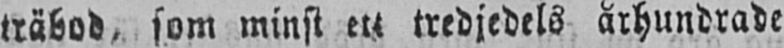träbod, som minst ett tredjedels århundrade
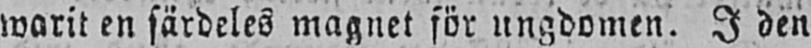warit en särdeles magnet for ungdomen. I den
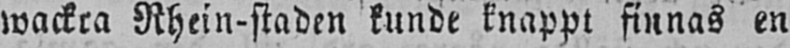wackra Rhein-staden kunde knappt finnas en
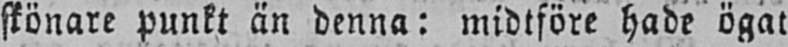skönare punkt än denna: midtföre hade ögat
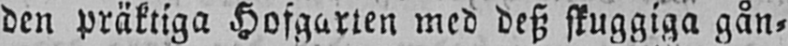den präktiga Hofgarten med desz skuggiga gån-
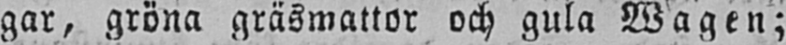gar, gröna gräsmattor och gula Wagen;
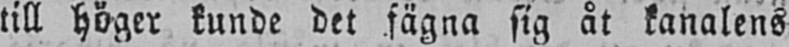till höger kunde det fägna sig åt kanalens
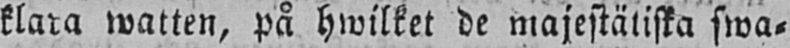klara watten, på hwilket de majestätiska swa-
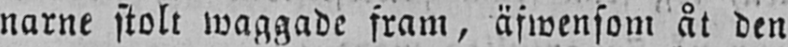narne stolt waggade fram, äfwensom åt den
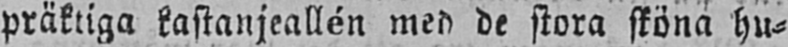präktiga kastanjeallén med de stora sköna hu-
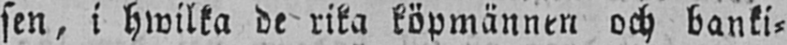sen, i hwilka de rika köpmännen och banki-
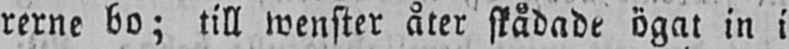rerne bo; till wenster åter stådade ögat in i
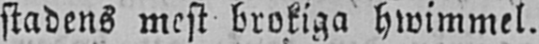stadens mest brokiga hwimmel.
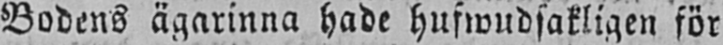Bodens ägarinna hade hufwudsakligen för
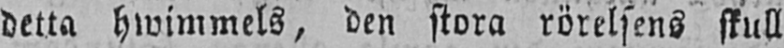detta hwimmels, den stora rörelsens skull
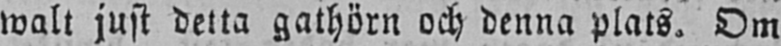walt just detta gathörn och denna plats. Om
